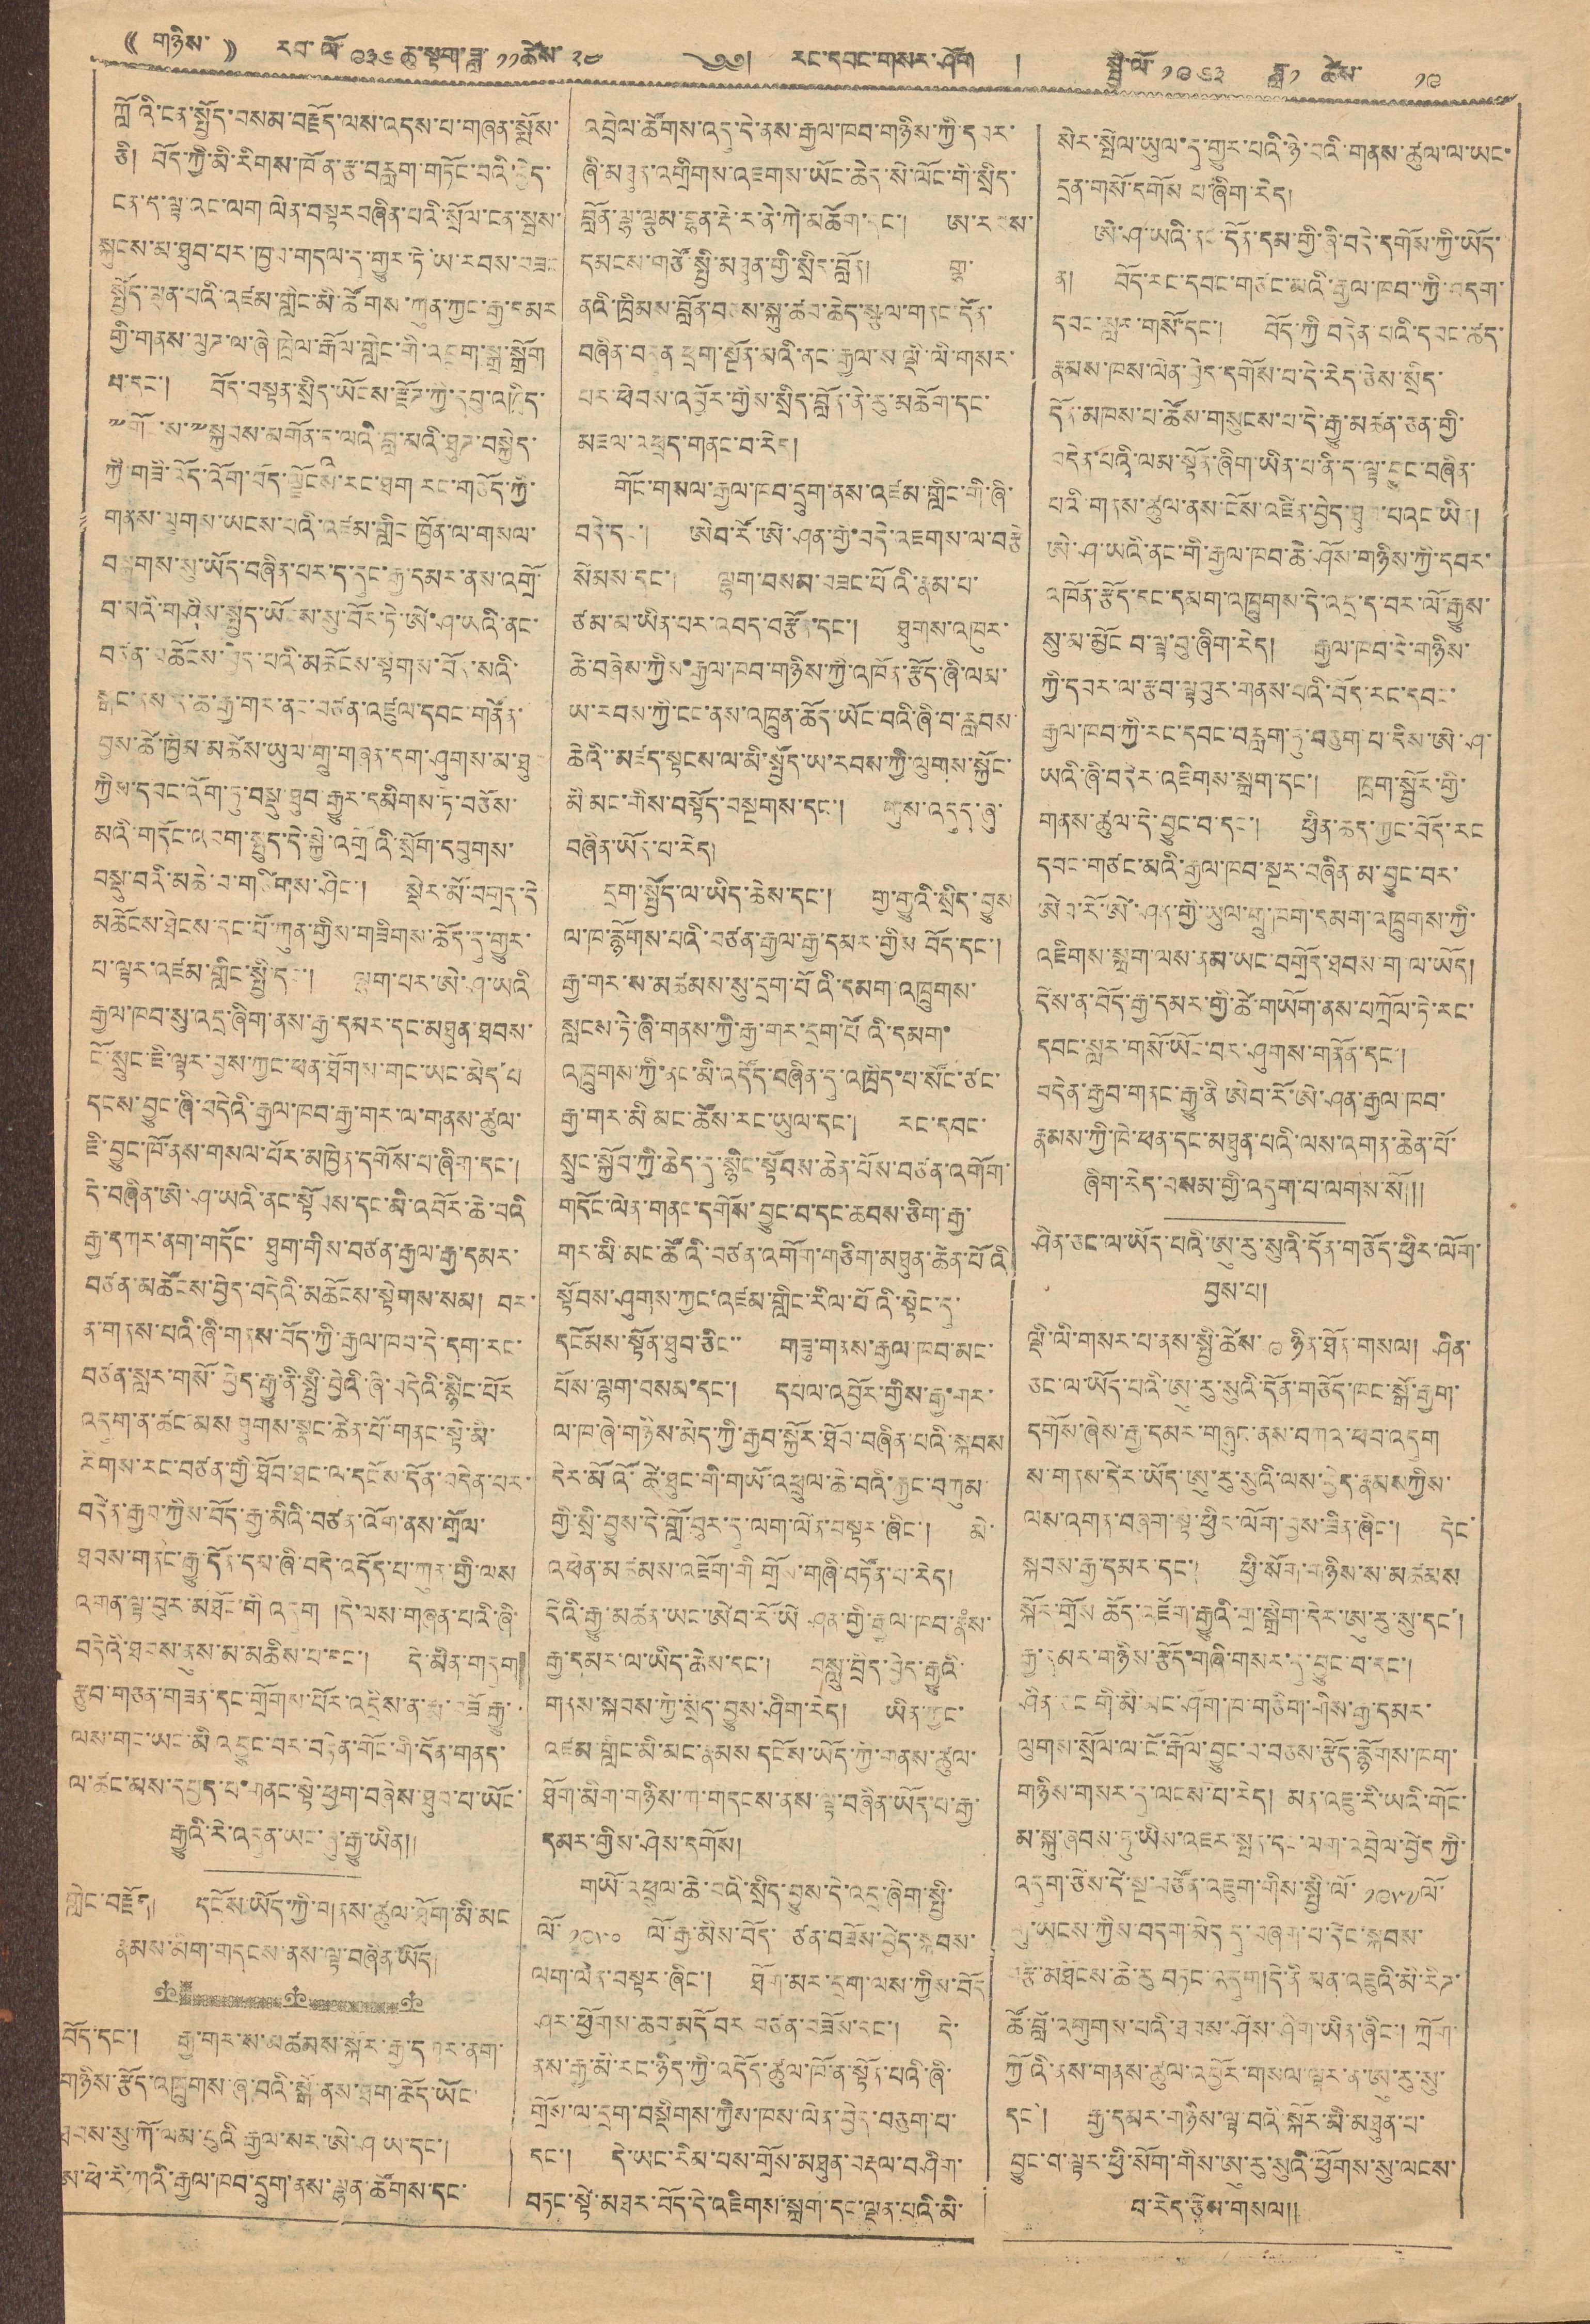((གཉིས་)) རབ་ལོ་ ༩༣༦ ཆུ་སྟག་ཟླ་ ༡༡ ཚེས་ ༢༤ ༄༅། རང་དབང་གསར་ཤོག །སྤྱི་ལོ་ ༡༩༦༣ ཟླ་ ༡ ཚེས་ ༡༩
ཀློའི་ངན་སྤྱོད་བསམ་བརྗོད་ལས་འདས་པ་གཞན་སྨོས་
ཅི། བོད་ཀྱི་མི་རིགས་ཁོ་ན་རྩ་བརླག་གཏོང་བའི་བྱེད་
ངན་ད་ལྟ་འང་ལག་ལེན་བསྟར་བཞིན་པའི་སྲོལ་ངན་སྦས་
སྐུངས་མ་ཐུབ་པར་ཁྱབ་གདལ་ད་གྱུར་ཏེ་ཡ་རབས་བཟང་
སྤྱོད་ལྡན་པའི་འཛམ་གླིང་མི་ཚོགས་ཀུན་ཀྱང་རྒྱ་དམར
གྱི་གནས་ལུཊ་ལ་ཞ་ཁྲེལ་རྒོལ་གླེང་གི་འབྲུག་སྒྲ་སྒྲོག
པ་དང་། བོད་བསྟན་སྲིད་ཡོངས་རྫོཊ་ཀྱི་དབུ་འཁྲིད་
༸གོང་ས་༸སྐྱབས་མགོན་ཏཱ་ལའི་བླ་མའི་ཐུཊ་བསྐྱེད་
གྱི་གཟི་འོད་འོག་བོད་ལྗོངས་རང་ཐག་གཅོད་ཀྱི་
གནས་ལུགས་ཡངས་པའི་འཛམ་གླིང་ཁྱོན་ལ་གསལ་
བསྒྲགས་སུ་ཡོད་བཞིན་པར་ད་དུང་རྒྱ་དམར་ནས་འགྲོ་
བ་མའི་གཤིས་སྤྱོད་ཡོངས་སུ་བོར་ཏེ་ཨེ་ཤ་ཡའི་ནང་
བཙན་མཆོངས་བྱེད་པའི་མཆོངས་སྟེགས་བོར་སའི་
སྒང་ནས་ད་ཆ་རྒྱ་གར་ནང་བཙན་འཛུལ་དབང་གནོན་
བྱས་ཚེ་ཁྱིམ་མཚེས་ཡུལ་གྲུ་གཞན་དག་ཤུགས་མ་ཐུང་
ཀྱིས་དབང་འོག་ཏུ་བསྡུས་ཐུབ་རྒྱུར་དམིགས་ཏེ་བཅོས་
མའི་གདོང་འབག་སྤུད་དེ་སྐྱེ་འགྲོའི་སྲོག་དབུགས་
བསྡུ་བའི་མཆེ་བ་གཙིགས་ཤིང་། སྡེར་མོ་བགྲད་དེ་
མཆོངས་ཐེངས་དང་པོ་ཀུན་གྱིས་གཟིགས་ཆོད་དུ་གྱུར་
པ་ལྟར་འཛམ་གླིང་སྤྱི་དང་། ལྷག་པར་ཨེ་ཤ་ཡའི
རྒྱལ་ཁབ་སུ་འདྲ་ཞིག་ནས་རྒྱ་དམར་དང་མཐུན་ཐབས་
ངོ་སྲུང་ཇི་ལྟར་བྱས་ཀྱང་ཕན་ཐོགས་གང་ཡང་མེད་པ་
དངས་བྱུང་ཞི་བདེའི་རྒྱལ་ཁབ་རྒྱ་གར་ལ་གནས་ཚུལ་
ཇི་བྱུང་ཁོ་ནས་གསལ་པོར་མཁྱེན་དགོས་པ་ཞིག་དང་།
དེ་བཞིན་ཨེ་ཤ་ཡའི་ནང་སྟོབས་དང་མི་འབོར་ཆེ་བའི
རྒྱ་དཀར་ནག་གདོང་ཐུག་གིས་བཙན་རྒྱལ་རྒྱ་དམར་
བཙན་མཚོངས་བྱེད་བདེའི་མཆོངས་སྟེགས་སམ། བར་
ན་གནས་པའི་ཞི་གནས་བོད་ཀྱི་རྒྱལ་ཁབ་དེ་དག་རང་
བཙན་སླར་གསོ་བྱེད་རྒྱུ་ནི་སྤྱི་བྱེའི་ཞི་བདེའི་སྙིང་པོར
འདུག་ན་ཚང་མས ཐུགས་སྣང་ཆེན་པོ་གནང་སྟེ་མི་
རིགས་རང་བཙན་གྱི་ཐོབ་ཐང་ལ་དངོས་དོན་བདེན་པར་
བདེན་རྒྱབ་ཀྱིས་བོད་རྒྱ་མིའི་བཙན་འོག་ནས་གྲོལ་
ཐབས་གནང་རྒྱུ་དོན་དམ་ཞི་བདེ་འདོད་པ་ཀུན་གྱི་ལས
འགན་ལྟ་བུར་མཐོང་གི་འདུག །དེ་ལས་གཞན་པའི་ཞི་
བདེའི་ཐབས་ནུས་མ་མཆིས་པ་རང་། དེ་མིན་གདུག
རྩུབ་གཅན་གཟན་དང་གྲོགས་པོར་འདྲེས་ན་རྨ་བཟོ་རྒྱུ་
ལས་གང་ཡང་མི འབྱུང་བར་བརྟེན་གོང་གི་དོན་གནད་
ལ་ཚང་མས་དཔྱད་པ་གནང་སྟེ་ཕྱག་བཞེས་ཐུབ་པ་ཡོང་
རྒྱུའི་རེ་འདུན་ཡང་ཞུ་རྒྱུ་ཡིན༎
གླེང་བརྗོད། དངོས་ཡོད་ཀྱི་གནས་ཚུལ་ཐོག་མི་མང
རྣམས་མིག་གདངས་ནས་ལྟ་བཞིན་ཡོད།
བོད་དང་། རྒྱ་གར་ས་མཚམས་སྐོར་རྒྱ་དཀར་ནག་
གཉིས་རྩོད་འཁྲུགས་ཞ་བའི་སྒོ་ནས་ཐག་ཆོད་ཡོང་
ཐབས་སུ་ཀོ་ལམ་བུའི རྒྱལ་སར་ཨེ་ཤ ཡ་དང་།
ཨ་ཕི་རི་ཀའི་རྒྱལ་ཁབ་དྲུག་ནས་ལྷན་ཚོགས་དང་
འབྲེལ་ཚོགས་འདུ་དེ་ནས་རྒྱལ་ཁབ་གཉིས་ཀྱི་དབར་
ཞི་མཐུན་འགྲིགས་འཇགས་ཡོང་ཆེད་སེ་ལོང་གི་སྲིད་
བློན་ལྷ་ལྕམ་བྷན་རྡེ་ར་ནེ་ཀེ་མཆོག་དང་། ཨ་རབས་
དམངས་གཙོ་སྤྱི་མཐུན་གྱི་སྲིད་བློན། གྷ་
ནའི་ཁྲིམས་བློན་བཅས་སྐུ་ཚབ་ཆེད་སྕལ་གནང་དོན་
བཞིན་བདུན་ཕྲག་སྔོན་མའི་ནང་རྒྱལ་ས་ལྡི་ལི་གསར་
པར་ཕེབས་འབྱོར་གྱིས་སྲིད་བློན་ནེ་རུ་མཆོག་དང་
མཇལ་འཕྲད་གནང་བ་རེད།
གོང་གསལ་རྒྱལ་ཁབ་དྲུག་ནས་འཛམ་གླིང་གི་ཞི་
བདེ་དང་། ཨེབ་རོ་ཨེ་ཤན་གྱི་བདེ་འཇགས་ལ་བརྩེ
སེམས་དང་། ལྷག་བསམ་བཟང་པོའི་རྣམ་པ་
ཙམ་མ་ཡིན་པར་འབད་བརྩོན་དང་། ཐུགས་འཁུར་
ཆེ་བཞེས་ཀྱིས་རྒྱལ་ཁབ་གཉིས་ཀྱི་འཁོན་རྩོད་ཞི་ལམ་
ཡ་རབས་ཀྱི་ངང་ནས་འཁྲུན་ཆོད་ཡོང་བའི་ཞི་བ་རླབས་
ཆེའི་་མཛད་སྟངས་ལ་མི་སྤྱོད་ཡ་རབས་ཀྱི་ལུགས་སྐྱོང་
མི་མང་གིས་བསྟོད་བསྔགས་དང་། གུས་འདུད་ཞུ་
བཞིན་ཡོད་པ་རེད།
དྲག་སྤྱོད་ལ་ཡིད་ཆེས་དང་། གྱ་གྱུའི་སྲིད་བྱུས
ལ་ཁ་རྙོགས་པའི་བཙན་རྒྱལ་རྒྱ་དམར་གྱིས བོད་དང་།
རྒྱ་གར་ས་མཚམས་སུ་དྲག་པོའི་དམག་འཁྲུགས་
སླངས་ཏེ་ཞི་གནས་ཀྱི་རྒྱ་གར་དྲག་པོའི་དམག་
འཁྲུགས་ཀྱི་ནང་མི་འདོད་བཞིན་དུ་འཁྲིད་པ་སོང་ཙང་
རྒྱ་གར་མི མང་ཚོས་རང་ཡུལ་དང་། རང་དབང་
སྲུང་སྐྱོབ་ཀྱི་ཆེད་དུ་སྙིང་སྟོབས་ཆེན་པོས་བཙན་འགོག་
གདོང་ལེན་གནང་དགོས་བྱུང་བ་དང་ཆབས་ཅིག་རྒྱ་
གར་མི་མང་ཚོའི་བཙན་འགོག་གཅིག་མཐུན་ཆེན་པོའི
སྟོབས་ཤུགས་ཀྱང་འཛམ་གླིང་རིལ་པོའི་སྟེང་དུ་
དངོམས་སྟོན་ཐུབ་ཅིང་་ གཟུ་གནས་རྒྱལ་ཁབ་མང་
པོས་ལྷག་བསམ་དང་། དཔལ་འབྱོར་གྱིས་རྒྱ་གར་
ལ་ཁ་ཞེ་གཉིས་མེད་ཀྱི་རྒྱབ་སྐྱོར་ཐོབ་བཞིན་པའི་སྐབས
དེར་མོའི་ཚེ་ཐུང་གི་གཡོ་འཕྲུལ་ཆེ་བའི་རྐྱང་བཀུམ་
གྱི་སྲི་བྱུས་དེ་གློ་བུར་དུ་ལག་ལེན་བསྟར་ཞིང་། མེ་
འཕེན་མཚམས་འཇོག་གི གྲོས་གཞི་བཏོན་པ་རེད།
དེའི་རྒྱུ་མཚན་ཡང་ཨེབ་རོ་ཡེ་ཤན་གྱི་རྒྱལ་ཁབ་རྣཾས་
རྒྱ་དམར་ལ་ཡིད་ཆེས་དང་། བསླུ་བྲིད་བྱེད་རྒྱུའི་
གནས་སྐབས་ཀྱི་སྲིད་བྱུས་ཤིག་རེད། ཡིན་ཀྱང་
འཛམ་གླིང་མི་མང་རྣམས དངོས་ཡོད་ཀྱི་གནས་ཚུལ་
ཐོམ་མིག་གཉིས་ཀ་གདངས་ནས་ལྟ་བཞིན་ཡོད་པ་རྒྱ་
དམར་གྱིས་ཤེས་དགོས།
གཡོ་འཕྲུལ་ཆེ་བའི་སྲིད་བྱུས་དེ་འདྲ་ཞིག་སྤྱི་
ལོ་ ༡༩༥༠ ལོ་རྒྱ་མིས་བོད་བཙན་བཟོས་བྱེད་སྐབས་
ལག་ལེན་བསྟར་ཞིང་། ཐོག་མར་དྲག་ལས་ཀྱིས་བོད
ཤར་ཕྱོགས་ཆབ་མདོ བར བཙན་བཟོས་དང་། དེ་
ནས་རྒྱ་མི་རང་ཉིད་ཀྱི་འདོད་ཚུལ་ཁོ་ན་སྟོན་པའི་ཞི་
གྲོས་ལ་དྲག་བསྡིགས་ཀྱིས་ཁས་ལེན་བྱེད་བཅུག་པ་
དང་། དེ་ཡང་རིམ་པས་གྲོས་མཐུན་བརྡལ་བཤིག་
བཏང་སྟེ་མཐར་བོད་དེ་འཇིགས་སྐྲག་དང་ལྡན་པའི་མི་
སེར་སྤེལ་ཡུལ་དུ་གྱུར་བའི་ཉེ་བའི་གནས་ཚུལ་ལ་ཡང་
དྲན་གསོ་དགོས པ་ཞིག་རེད།
ཨེབ་རོ་ཨེ་ཤན་གྱི་ཡུལ་གྲུ་ཁག་དམག་འཁྲུགས་ཀྱི་
འཇིགས་སྐྲག་ལས་ནམ་ཡང་བགྲོད་ཐབས་ག་ལ་ཡོད།
དེས་ན་བོད་རྒྱ་དམར་གྱི་ཚེ་གཡོག་ནས་བཀྲོལ་ཏེ་རང་
དབང་སླར་གསོ་ཡོང་བར་ཤུགས་གནོན་དང་།
བདེན་རྒྱབ་གནང་རྒྱུ་ནི་ཨེབ་རོ་ཨེ་ཤན་རྒྱལ་ཁབ་
རྣམས་ཀྱི་ཁེ་ཕན་དང་མཐུན་པའི་ལས་འགན་ཆེན་པོ་
ཞིག་རེད་བསམ་གྱི་འདུག་པ་ལགས་སོ།༎
ཨེ་ཤ་ཡའི་ནང་དོན་དམ་གྱི་ཞི་བདེ་དགོས་ཀྱི་ཡོད་
ན། བོད་རང་དབང་གཙང་མའི་རྒྱལ་ཁབ་ཀྱི་བདག་
དབང་སླར་གསོ་དང་། བོད་ཀྱི་བདེན་པའི་དབང་ཚད་
རྣམས་ཁས་ལེན་བྱེད་དགོས་པ་དེ་རེད་ཅེས་སྲིད་
དོན་མཁས་པ་ཚོས་གསུངས་པ་དེ་རྒྱུ་མཚན་ཅན་གྱི་
བདེན་པའི་ལམ་སྟོན་ཞིག་ཡིན་པ་ནི་ད་ལྟ་བྱུང་བཞིན་
པའི་གནས་ཚུལ་ནས་ངོས་འཛིན་བྱེད་ཐུབ་པའང་ཡིན།
ཨེ་ཤ་ཡའི་ནང་གི་རྒྱལ་ཁབ་ཆེ་ཤོས་གཉིས་ཀྱི་དབར་
འཁོན་རྩོད་དང་དམག་འཁྲུགས་དེ་འདྲ་ད་བར་ལོ་རྒྱུས་
སུ་མ་མྱོང བ་ལྟ་བུ་ཞིག་རེད། རྒྱལ་ཁབ་དེ་གཉིས་
ཀྱི་དབར་ལ་རྩབ་ལྟ་བུར་གན་པའི་བོད་རང་དབང་
རྒྱལ་ཁབ་ཀྱི་རང་དབང་བརླག་ཏུ་བཅུག་པ་དིས་ཨེ་ཤ་
ཡའི་ཞི་བདེར་འཇིགས་སྐྲག་དང་། ཁྲག་སྤྱོར་གྱི་
གནས་ཚུལ་དེ་བྱུང་བ་དང་། ཕྱིན་ཆད་ཀྱང་བོད་རང
དབང་གཙང་མའི་རྒྱལ་ཁབ་སྔར་བཞིན་མ་བྱུང་བར་
ཤིན་ཅང་ལ་ཡོད་པའི་ཨུ་རུ་སུའི་དོན་གཅོད་ཕྱིར་ལོག་
བྱས་པ།
ལྡི་ལི་གསར་པ་ནས་སྤྱི་ཚེས་ ༩ ཉིན་ཐོན་གསལ། ཤིན་
ཅང་ལ་ཡོད་པའི་ཨུ་རུ་སུའི་དོན་གཅོད་ཁང་སྒོ་རྒྱག་
དགོས་ཞེས་རྒྱ་དམར་གཞུང་ན་བཀའ་ཕབ་འདུག
ས་གནས་དེར་ཡོད་ཨུ་རུ་སུའི་ལས་བྱེད་རྣམས ཀྱིས་
ལས་འགན་བཞག་སྟེ་ཕྱིར་ལོག་བྱས་ཟིན་ཞིང་། དེང་
སྐབས་རྒྱ་དམར་དང་། ཕྱི་སོག་གཉིས་ས་མཚམས
སྐོར་གྲོས ཆོད་འཇོག་རྒྱུའི་གྲ་སྒྲིག་དེར་ཨུ་རུ་སུ་དང་།
རྒྱ་དམར་གཉིས་རྩོད་གཞི་གསར་དུ་བྱུང་བ་དང་།
ཤིན་ཅང་གི་མི་མང་ཤོག་ཁ་གཅིག་གིས་རྒྱ་དམར་
ལུགས་སྲོལ་ལ་ངོ་རྒོལ་བྱུང་བ་བཅས་རྩོད་རྙོགས་ཁག་
གཉིས་གསར་དུ་ལངས་པ་རེད། མན་འཇུ་རི་ཡའི་གོང་
མ་སྐུ་ཞབས་ཏུ་ཡིས་འཇར་སྤན་དང་ལག་འབྲེལ་བྱེད ཀྱི་
འདུག་ཅེས་དེ་སྔ་བཙོན་འཇུག་གིས་སྤྱི་ལོ་ ༡༩༥༧ ལོ་
གུ་ཡངས་ཀྱིས་བདག་མེད དུ་བཞག་པ་དེང་སྐབས་
བརྩི་མཐོངས་ཆེ་རུ བཏང་འདུག །དེ་ནི མན་འཇུའི་མི་རིཊ་
ཚོ་བློ་འགུགས་པའི་ཐབས་ཤེས་ཤིག་ཡིན་ཞིང་། ཀྲོག་
ཀྱོའི་ནས་གནས་ཚུལ་འབྱོར་གསལ་ལྟར་ན་ཨུ་རུ་སུ་
དང་། རྒྱ་དམར་གཉིས་ལྟ་བའི སྐོར་མི་མཐུན་པ་
བྱུང་བ་ལྟར་ཕྱི་སོག་གིས་ཨུ་རུ་སུའི་ཕྱོགས་སུ་ལངས་
པ་རེད་ཅེས་གསལ༎
